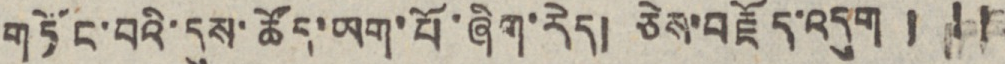གཏོང་བའི་དུས་ཚོད་ཡག་པོ་ཞིག་རེད། ཅེས་བརྗོད་འདུག ། ། །
